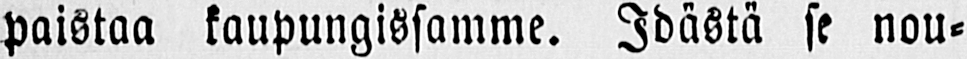paistaa kaupungissamme. Idästä se nou-
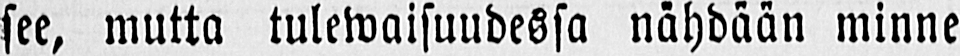see, mutta tulewaisuudessa nähdään minne
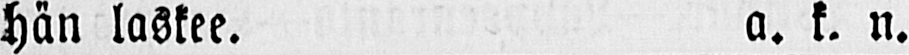hän laskee. a. k. n.
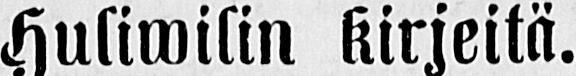Huliwilin kirjeitä.
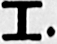I.
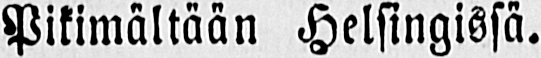Pikimältään Helsingissä.
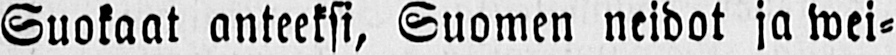Suokaat anteeksi, Suomen neidot ja wei-
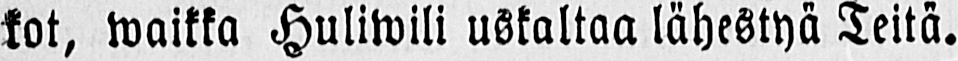kot, waikka Huliwili uskaltaa lähestyä Teitä.
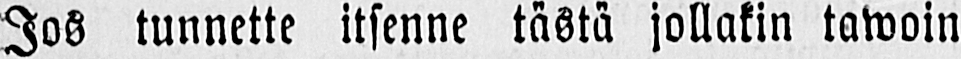Jos tunnette itsenne tästä jollakin tawoin
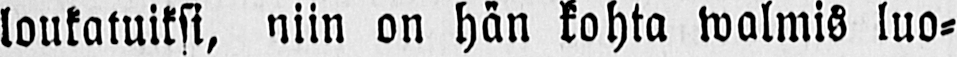loukatuiksi, niin on hän kohta walmis luo-
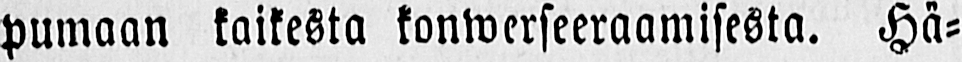pumaan kaikesta konwerseeraamisesta. Hä-
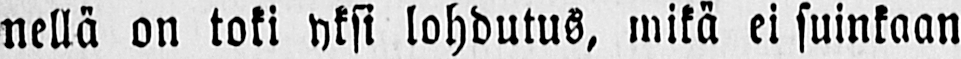nellä on toki yksi lohdutus, mikä ei suinkaan
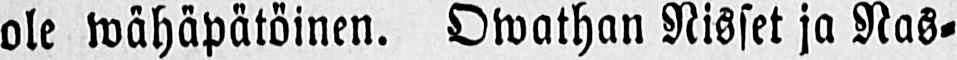ole wähäpätöinen. Owathan Nisset ja Nas-
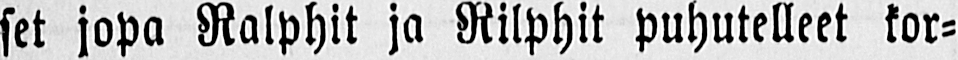set jopa Ralphit ja Rilphit puhutelleet kor-
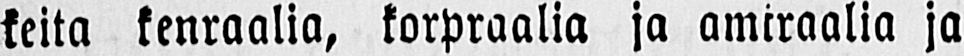keita kenraalia, korpraalia ja amiraalia ja
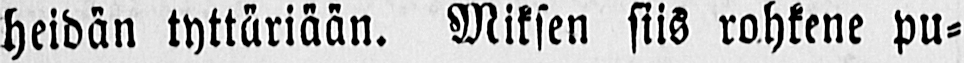heidän tyttäriään. Miksen siis rohkene pu-
